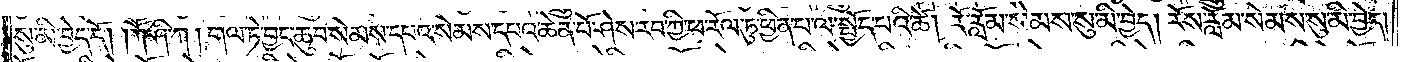སུ་མི་བྱེད་དོ། །ཀཽ་ཤི་ཀ། གལ་ཏེ་བྱང་ཆུབ་སེམས་དཔའ་སེམས་དཔའ་ཆེན་པོ་ཤེས་རབ་ཀྱི་ཕ་རོལ་ཏུ་ཕྱིན་པ་ལ་སྤྱོད་པའི་ཚེ། རོ་རློམ་སེམས་སུ་མི་བྱེད། རོས་རློམ་སེམས་སུ་མི་བྱེད།
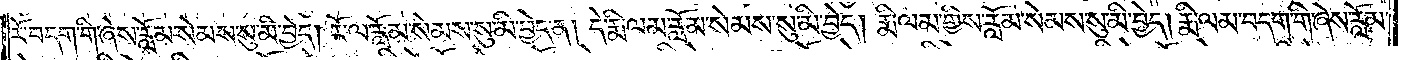རོ་བདག་གི་ཞེས་རློམ་སེམས་སུ་མི་བྱེད། རོ་ལ་རློམ་སེམས་སུ་མི་བྱེད་ན། དེ་རྨི་ལམ་རློམ་སེམས་སུ་མི་བྱེད། རྨི་ལམ་གྱིས་རློམ་སེམས་སུ་མི་བྱེད། རྨི་ལམ་བདག་གི་ཞེས་རློམ་
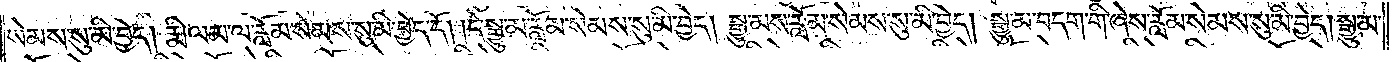སེམས་སུ་མི་བྱེད། རྨི་ལམ་ལ་རློམ་སེམས་སུ་མི་བྱེད་དོ། །དེ་སྒྱུ་མ་རློམ་སེམས་སུ་མི་བྱེད། སྒྱུ་མས་རློམ་སེམས་སུ་མི་བྱེད། སྒྱུ་མ་བདག་གི་ཞེས་རློམ་སེམས་སུ་མི་བྱེད། སྒྱུ་མ་
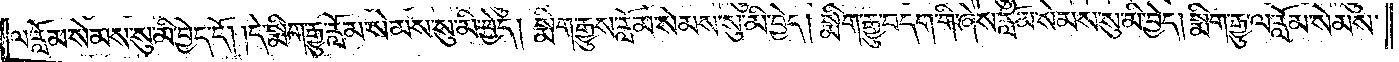ལ་རློམ་སེམས་སུ་མི་བྱེད་དོ། །དེ་སྨིག་རྒྱུ་རློམ་སེམས་སུ་མི་བྱེད། སྨིག་རྒྱུས་རློམ་སེམས་སུ་མི་བྱེད། སྨིག་རྒྱུ་བདག་གི་ཞེས་རློམ་སེམས་སུ་མི་བྱེད། སྨིག་རྒྱུ་ལ་རློམ་སེམས་
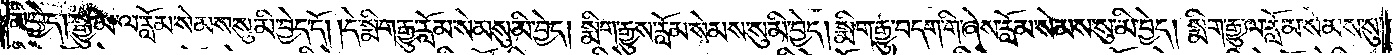མི་བྱེད། སྒྱུ་མ་ལ་རློམ་སེམས་སུ་མི་བྱེད་དོ། །དེ་སྨིག་རྒྱུ་རློམ་སེམས་སུ་མི་བྱེད། སྨིག་རྒྱུས་རློམ་སེམས་སུ་མི་བྱེད། སྒྱུ་མ་བདག་གི་ཞེས་རློམ་སེམས་སུ་མི་བྱེད། སྨིག་རྒྱུ་ལ་རློམ་སེམས་སུ་
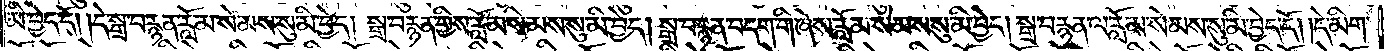མི་བྱེད་དོ། །དེ་སྒྲ་བརྙན་རློམ་སེམས་སུ་མི་བྱེད། སྒྲ་བརྙན་གྱིས་རློམ་སེམས་སུ་མི་བྱེད། སྒྲ་བརྙན་བདག་གི་ཞེས་རློམ་སེམས་སུ་མི་བྱེད། སྒྲ་བརྙན་ལ་རློམ་སེམས་སུ་མི་བྱེད་དོ། །དེ་མིག་
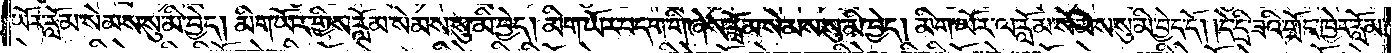ཡོར་རློམ་སེམས་སུ་མི་བྱེད། མིག་ཡོར་གྱིས་རློམ་སེམས་སུ་མི་བྱེད། མིག་ཡོར་བདག་གི་ཞེས་རློམ་སེམས་སུ་མི་བྱེད། མིག་ཡོར་ལ་རློམ་སེམས་སུ་མི་བྱེད་དོ། །དེ་དྲི་ཟའི་གྲོང་ཁྱེར་རློམ་
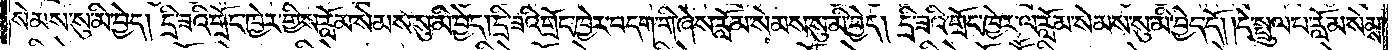སེམས་སུ་མི་བྱེད། དྲི་ཟའི་གྲོང་ཁྱེར་གྱིས་རློམ་སེམས་སུ་མི་བྱེད། དྲི་ཟའི་གྲོང་ཁྱེར་བདག་གི་ཞེས་རློམ་སེམས་སུ་མི་བྱེད། དྲི་ཟའི་གྲོང་ཁྱེར་ལ་རློམ་སེམས་སུ་མི་བྱེད་དོ། །དེ་སྤྲུལ་པ་རློམ་སེམས་
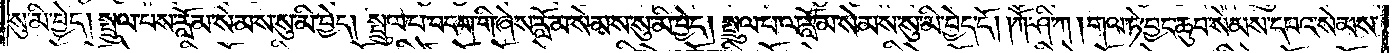སུ་མི་བྱེད། སྤྲུལ་པས་རློམ་སེམས་སུ་མི་བྱེད། སྤྲུལ་པ་བདག་གི་ཞེས་རློམ་སེམས་སུ་མི་བྱེད། སྤྲུལ་པ་ལ་རློམ་སེམས་སུ་མི་བྱེད་དོ། །ཀཽ་ཤི་ཀ། གལ་ཏེ་བྱང་ཆུབ་སེམས་དཔའ་སེམས་
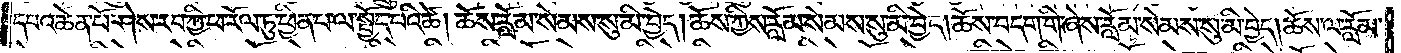དཔའ་ཆེན་པོ་ཤེས་རབ་ཀྱི་ཕ་རོལ་ཏུ་ཕྱིན་པ་ལ་སྤྱོད་པའི་ཚེ། ཆོས་རློམ་སེམས་སུ་མི་བྱེད། ཆོས་ཀྱིས་རློམ་སེམས་སུ་མི་བྱེད། ཆོས་བདག་གི་ཞེས་རློམ་སེམས་སུ་མི་བྱེད། ཆོས་ལ་རློམ་
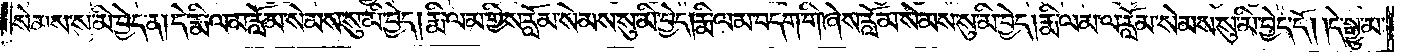སེམས་སུ་མི་བྱེད་ན། དེ་རྨི་ལམ་རློམ་སེམས་སུ་མི་བྱེད། རྨི་ལམ་གྱིས་རློམ་སེམས་སུ་མི་བྱེད། རྨི་ལམ་བདག་གི་ཞེས་རློམ་སེམས་སུ་མི་བྱེད། རྨི་ལམ་ལ་རློམ་སེམས་སུ་མི་བྱེད་དོ། །དེ་སྒྱུ་མ་
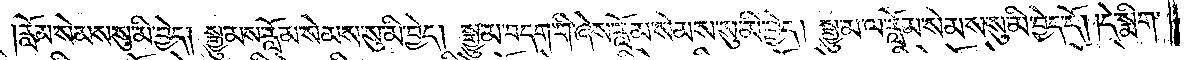རློམ་སེམས་སུ་མི་བྱེད། སྒྱུ་མས་རློམ་སེམས་སུ་མི་བྱེད། སྒྱུ་མ་བདག་གི་ཞེས་རློམ་སེམས་སུ་མི་བྱེད། སྒྱུ་མ་ལ་རློམ་སེམས་སུ་མི་བྱེད་དོ། །དེ་སྨིག་
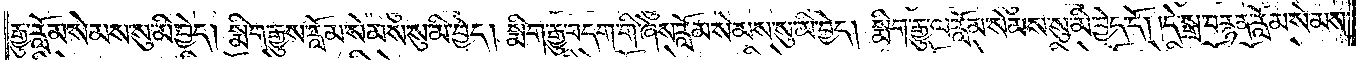རྒྱུ་རློམ་སེམས་སུ་མི་བྱེད། མིག་རྒྱུས་རློམ་སེམས་སུ་མི་བྱེད། སྨིག་རྒྱུ་བདག་གི་ཞེས་རློམ་སེམས་སུ་མི་བྱེད། སྨིག་རྒྱུ་ལ་རློམ་སེམས་སུ་མི་བྱེད་དོ། །དེ་སྒྲ་བརྙན་རློམ་སེམས་
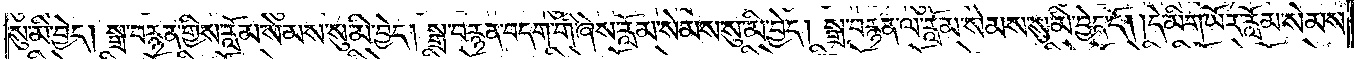སུ་མི་བྱེད། སྒྲ་བརྙན་གྱིས་རློམ་སེམས་སུ་མི་བྱེད། སྒྲ་བརྙན་བདག་གི་ཞེས་རློམ་སེམས་སུ་མི་བྱེད། སྒྲ་བརྙན་ལ་རློམ་སེམས་སུ་མི་བྱེད་དོ། །དེ་མིག་ཡོར་རློམ་སེམས་
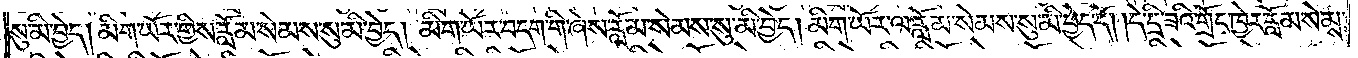སུ་མི་བྱེད། མིག་ཡོར་གྱིས་རློམ་སེམས་སུ་མི་བྱེད། མིག་ཡོར་བདག་གི་ཞེས་རློམ་སེམས་སུ་མི་བྱེད། མིག་ཡོར་ལ་རློམ་སེམས་སུ་མི་བྱེད་དོ། །དེ་དྲི་ཟའི་གྲོང་ཁྱེར་རློམ་སེམས་
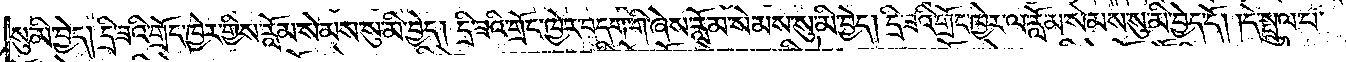སུ་མི་བྱེད། དྲི་ཟའི་གྲོང་ཁྱེར་གྱིས་རློམ་སེམས་སུ་མི་བྱེད། དྲི་ཟའི་གྲོང་ཁྱེར་བདག་གི་ཞེས་རློམ་སེམས་སུ་མི་བྱེད། དྲི་ཟའི་གྲོང་ཁྱེར་ལ་རློམ་སེམས་སུ་མི་བྱེད་དོ། །དེ་སྤྲུལ་པ་
